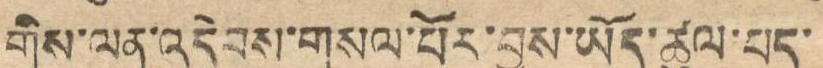གིས་ལན་འདེབས་གསལ་པོར་བྱས་ཡོད་ཚུལ་པད་
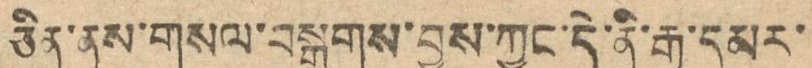ཅིན་ནས་གསལ་བསྒྲགས་བྱས་ཀྱང་དེ་ནི་རྒྱ་དམར་
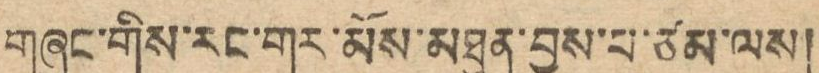གཞུང་གིས་རང་གར་མོས་མཐུན་བྱས་པ་ཙམ་ལས།
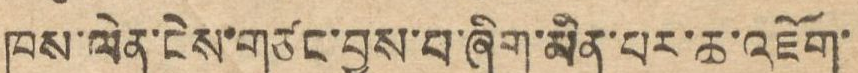ཁས་ལེན་ངེས་གཙང་བྱས་པ་ཞིག་མིན་པར་ཆ་འཇོག་
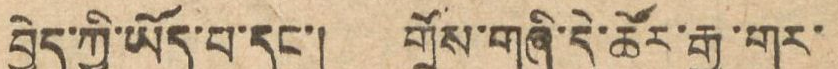བྱེད་ཀྱི་ཡོད་པ་དང་། གྲོས་གཞི་དེ་ཚོར་རྒྱ་གར་
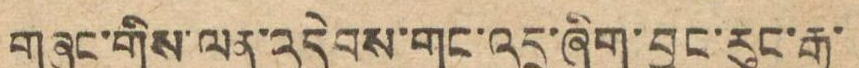གཞུང་གིས་ལན་འདེབས་གང་འདྲ་ཞིག་བྱུང་རུང་རྒྱ་
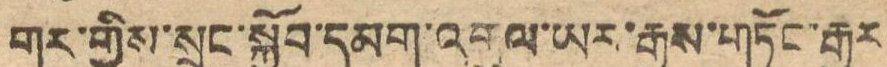གར་གྱིས་སྲུང་སྐྱོབ་དམག་འགུལ་འགུལ་ཡར་རྒྱས་གཏོང་རྒྱུར
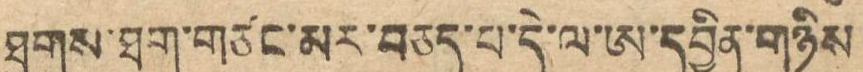ཐུགས་ཐག་གཙང་མར་བཅད་པ་དེ་ལ་ཨ་དབྱིན་གཉིས
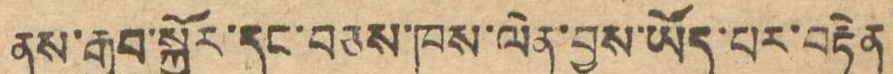ནས་རྒྱབ་སྐྱོར་དང་བཅས་ཁས་ལེན་བྱས་ཡོད་པར་བརྟེན
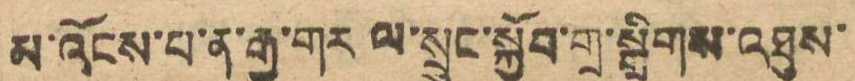མ་འོངས་པ་ན་རྒྱ་གར ལ་སྲུང་སྐྱོབ་གྲ་སྒྲིགས་འཐུས་
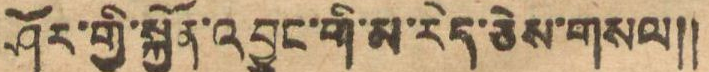ཤོར་གྱི་སྐྱོན་འབྱུང་གི་མ་རེད་ཅེས་གསལ།།
